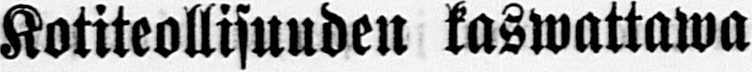Kotiteollisuuden kaswattawa
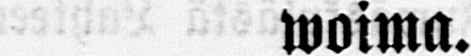woima.
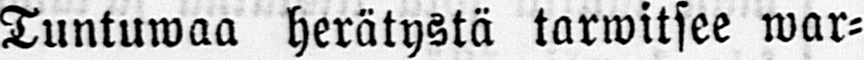Tuntuwaa herätystä tarwitsee war-
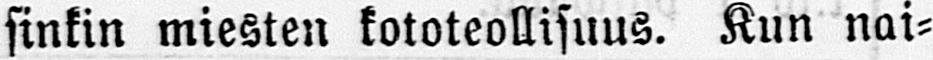sinkin miesten kototeollisuus. Kun nai-
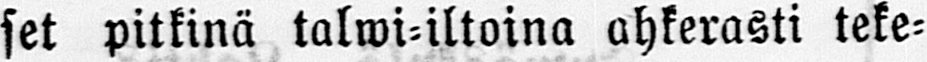set pitkinä talwi-iltoina ahkerasti teke-
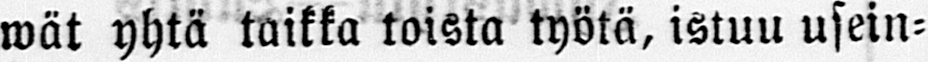wät yhtä taikka toista työtä, istuu usein-
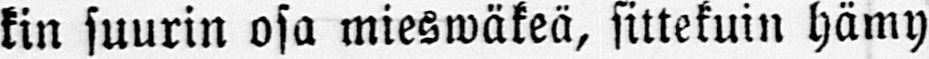kin suurin osa mieswäkeä, sittekuin hämy
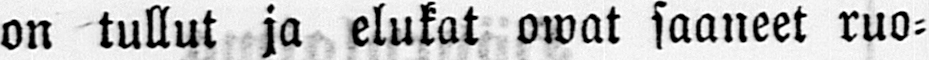on tullut ja elukat owat saaneet ruo-
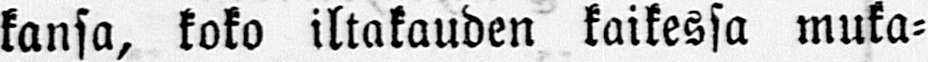kansa, koko iltakauden kaikessa muka-
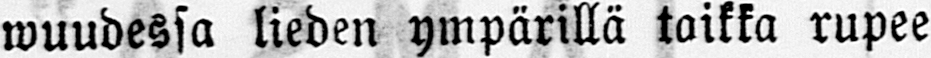wuudessa lieden ympärillä taikka rupee
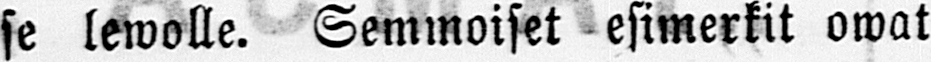se lewolle. Semmoiset esimerkit owat
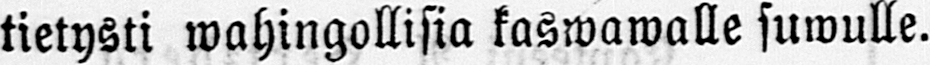tietysti wahingollisia kaswawalle suwulle.
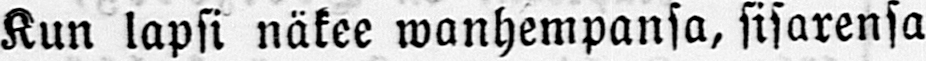Kun lapsi näkee wanhempansa, sisarensa
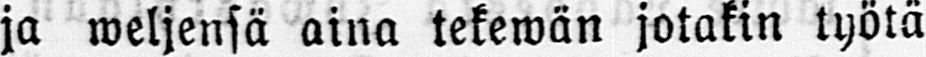ja weljensä aina tekewän jotakin työtä
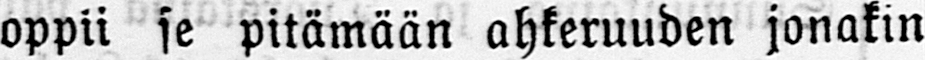oppii se pitämään ahkeruuden jonakin
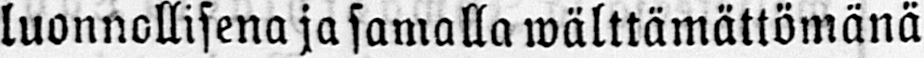luonnollisena ja samalla wälttämättömänä
